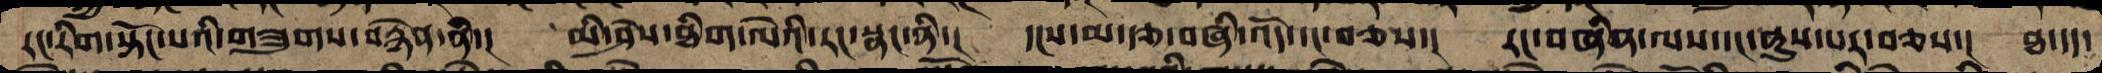རང་རིག་སྟོང་པའི་གཟུགས་བརྙེན་ནི་། མི་ཤེས་ཐིག་ལེའི་རང་སྣང་ནི་། དངས་མ་རྩ་བཞི་འོད་དང་བཅས་། རང་བཞིན་ལས་དང་ནུས་པར་བཅས་། ཐ་དད་
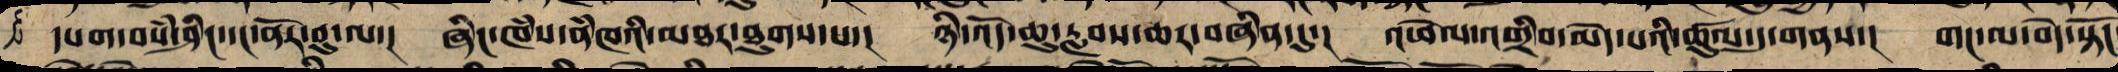དཔག་བསམ་ཤིང་དང་ནོར་བུ་ལ་། ཞིང་ཁམས་ནམ་མཁའི་མཐར་ཐུག་པ་། ཉི་འོད་ཆུ་རླབས་ཆར་བཞིན་དུ་། འཕེལ་འགྲིབ་མེད་པའི་ཚུལ་དུ་གནས་། གང་ལ་བདེ་སྟོང་
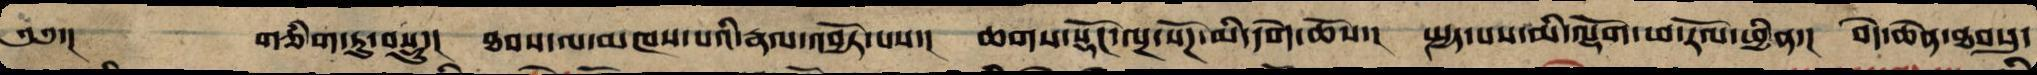༄༅་། གཅིག་ཏུ་བསྡུ་། ཐབས་ལ་མཁས་པའི་རྣལ་འབྱོར་པ་ས། ཆགས་སྡོང་ལྔ་སོཌ་མི་དགེ་ཆོས་། སྤྱད་པས་མི་ལྡོག་ཕ་རོལ་ཕྱིན་། བདེ་ཆེན་ཐབསུ་
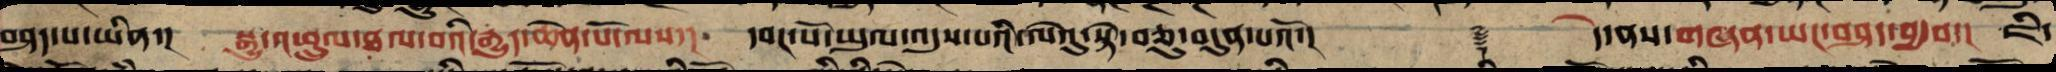བཤད་པ་ཡིན་། སྒྱུ་འཕྲུལ་ཐལ་བའི་རྒྱུད་ཆེན་པོ་ལས་། དབང་པོ་ཡུལ་འདུས་པའི་ལེའུ་སྟེ་བཅུ་བདུན་པའོ་།། ༈ དེ་ནས་གཞན་ཡང་བཤད་བྱ་བ་། ཇི་
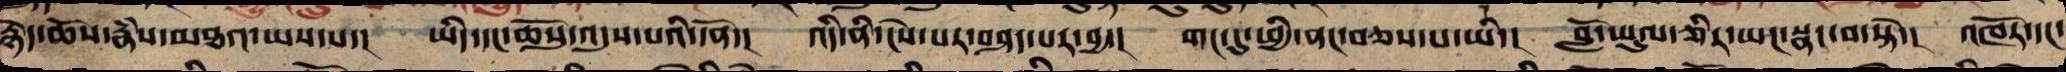སྙེད་ཆོས་རྣཾས་མཐའ་ཡས་པ་། ཡིད་དང་ཆོསུ་འདུས་པའི་དོན་། འདི་ནི་ངེས་པར་བཤད་པར་བྱ་། གང་དུ་ཕྱི་ནང་བཅས་པ་ཡི་། བློ་ཡུལ་ཅིར་ཡང་སྣང་བ་སྟེ་། འཁོར་དང་
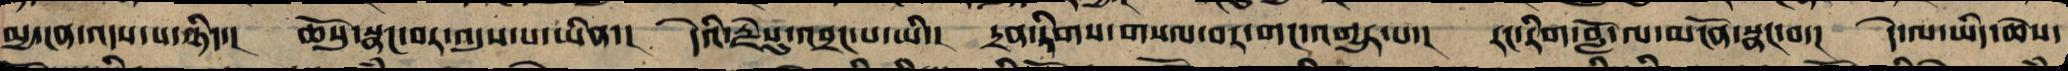མྱ་ངན་འདས་པ་ཉིད་། ཆོསུ་སྣང་བར་འདུས་པ་ཡིན་། དེ་ཡི་རྗེསུ་འབྲང་བ་ཡིས་། དྲན་རིག་གསལ་བར་གང་གྱུར་པ་། རང་རིག་བློ་ལ་མངོན་སྣང་བ་། དེ་ལ་ཡིད་ཆེས་
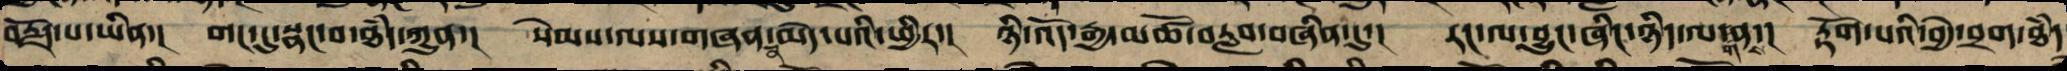བརྗོད་པ་ཡིན་། གང་དུ་སྣང་བ་ཐཾད་ཀུན་། སེམས་ལས་གཞན་་མེད་པའི་ཕྱིར་། ཉི་འོད་རྒྱ་མཚོ་་རླབས་བཞིན་དུ་། རང་ལས་བྱུང་ཞིང་ཉིད་ལ་གནས་། རྟོགས་པའི་བྱེ་བྲག་ཐཾད་
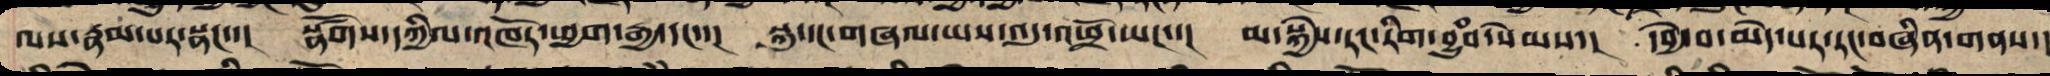ལས་རྣམ་པར་སྣང་་། སྣཚོགས་དཀྱིལ་འཁོར་ཕྱག་རྒྱ་དང་་། སྐུ་དང་གཞལ་ཡས་འདུ་འཕྲོ་ཡང་་། མ་སྐྱེས་རང་རིག་བྱུཾབ་སེམས་། དབྱེ་བ་མེད་པར་རང་བཞིན་གནས་།
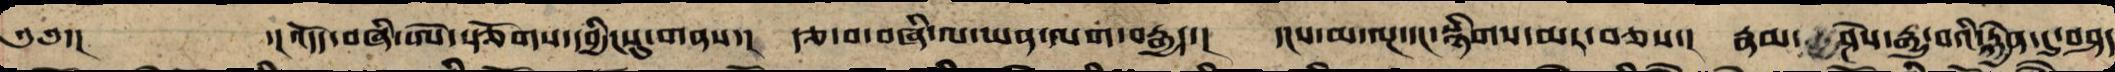༄༅་། ་།འོདད་བཞི་ཨེ་རྩོགས་དབྱིབས་སུ་གནས་། རྩ་བ་བཞི་ལ་ཡན་ལག་བརྒྱད་། དྭངས་མ་ལྔ་དང་སྙིགས་མར་བཅས་། རྣམ་ཤེས་རྒྱུ་བའི་རྐྱེན་དུ་བཤད
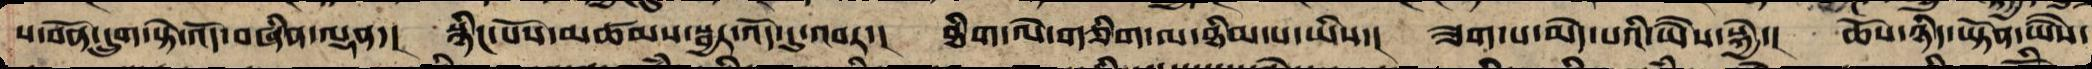ས་བོན་དྲུག་སྟེ་འོད་བཞིན་ལྡན་། སྙིང་པོས་མཚམས་སྦྱར་འོད་དུ་འབར་། ཐིག་ལེ་གཅིག་ལ་ཐིམ་པ་ཡིས་། ཟག་པ་མེད་པའི་ཡཻས་སྐྱེ་། ཆོས་ཉིད་ཡྟོན་ཡཻས་
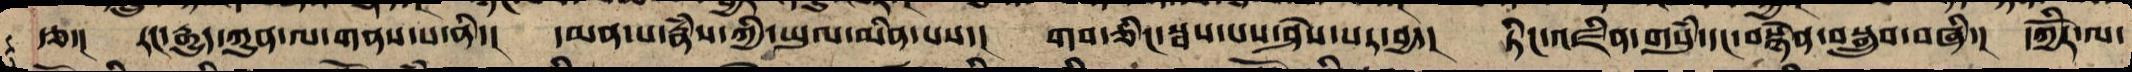རྩ་། རང་རྒྱུད་ཀུན་ལ་གནས་པ་ནི་། དམན་པ་རྣཾས་ཀྱི་ཡུལ་མིན་པས་། གབ་ཅིང་སྦས་པར་ཤེས་པར་བྱ་། ཏིང་འཛིན་གསུཾ་དང་བསྙེན་བསྒྲུབ་བཞི་། དཀྱིོར་ལ་
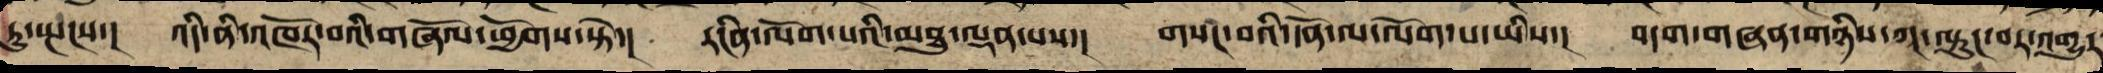ཏུ་སྤངས་། འདི་ནི་འཁོར་བའི་གཞོལ་ཕྱོགས་སྟེ་། རངིན་ལོག་པའི་མཐུ་ལྡན་པས་། གསང་བའི་དོན་ལ་ལོག་པ་ཡིས་། བདག་གཞན་གཉིས་ཀ་ལྟུང་བར་འགྱུར
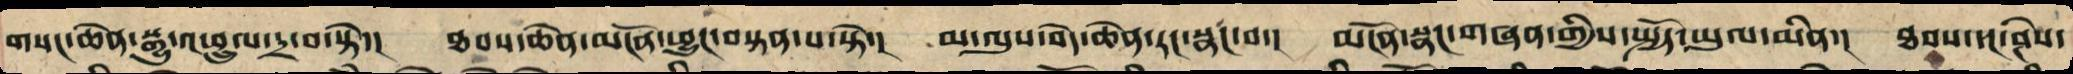གསང་ཆེན་སྒྱུ་འཕྲུལ་དྲ་བ་སྟེ་། ཐབས་ཆེན་མངོན་ཕྱུང་བསྟན་པ་སྟེ་། མ་ལུས་བདེ་ཆེན་རང་སྣང་བ་། མངོན་སྣང་གཞན་གྱིས་སྤྱོད་ཡུལ་མིན་། ཐབས་དང་ཤེས་
